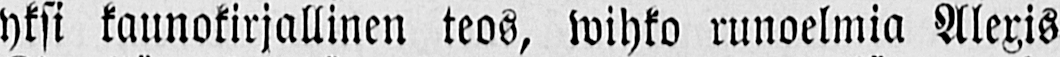yksi kaunokirjallinen teos, wihko runoelmia Alexis
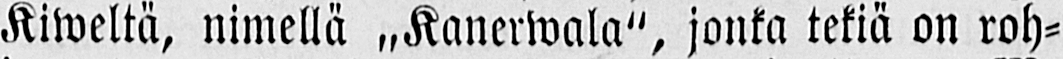Kiweltä, nimellä „Kanerwala", jonka tekiä on roh-
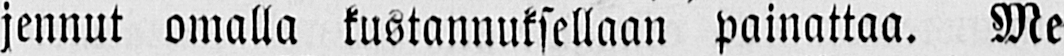jennut omalla kustannuksellaan painattaa. Me
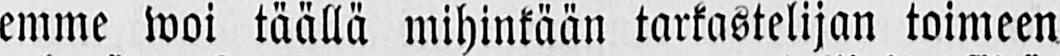emme woi täällä mihinkään tarkastelijan toimeen
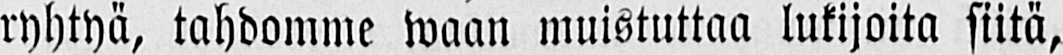ryhtyä, tahdomme waan muistuttaa lukijoita siitä,
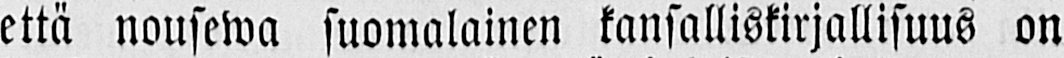että nousewa suomalainen kansalliskirjallisuus on
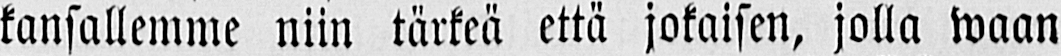kansallemme niin tärkeä että jokaisen, jolla waan
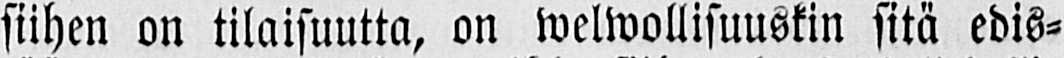siihen on tilaisuutta, on welwollisuuskin sitä edis-
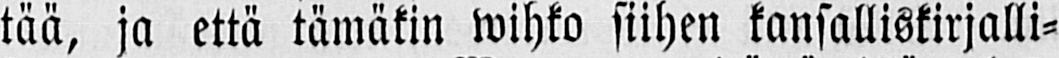tää, ja että tämäkin wihko siihen kansalliskirjalli-
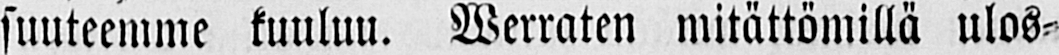suuteemme kuuluu. Werraten mitättömillä ulos-
